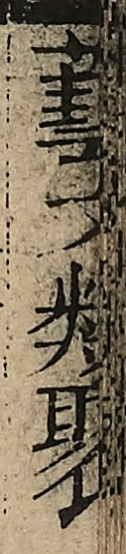藝文類聚
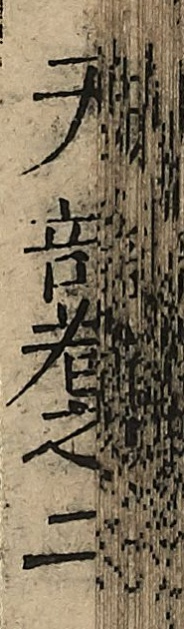天部卷之二
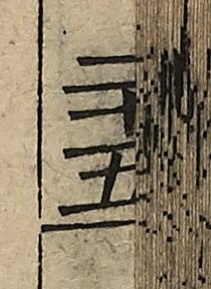三五
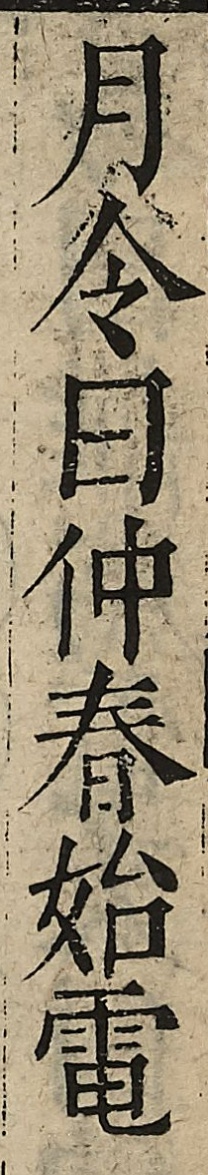月令曰仲春始電
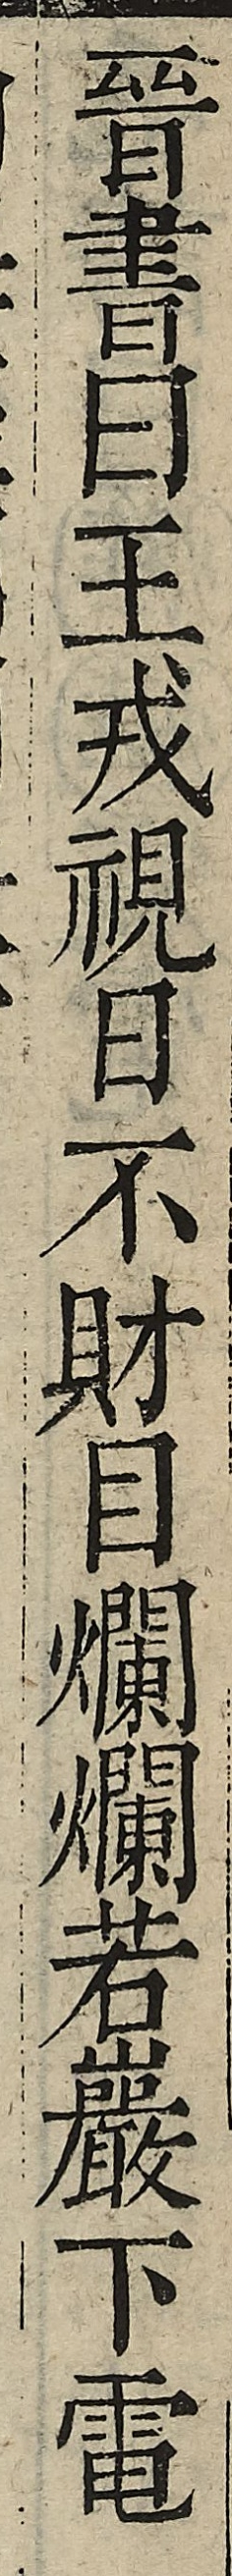晉書曰王戎視日不財目爛爛若巖下電
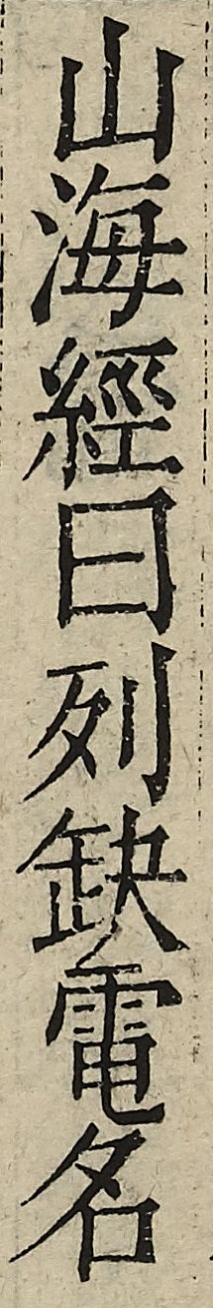山海經曰列缺電名
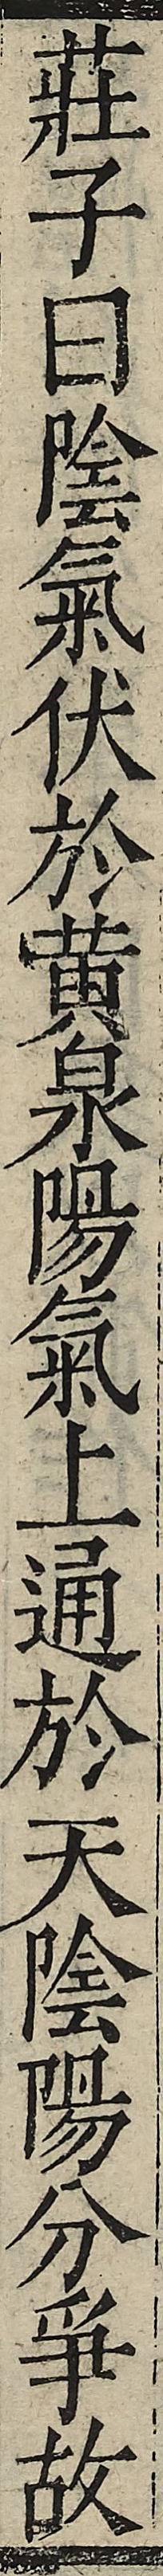莊子曰陰氣伏於黃泉陽氣上通於天陰陽分爭故
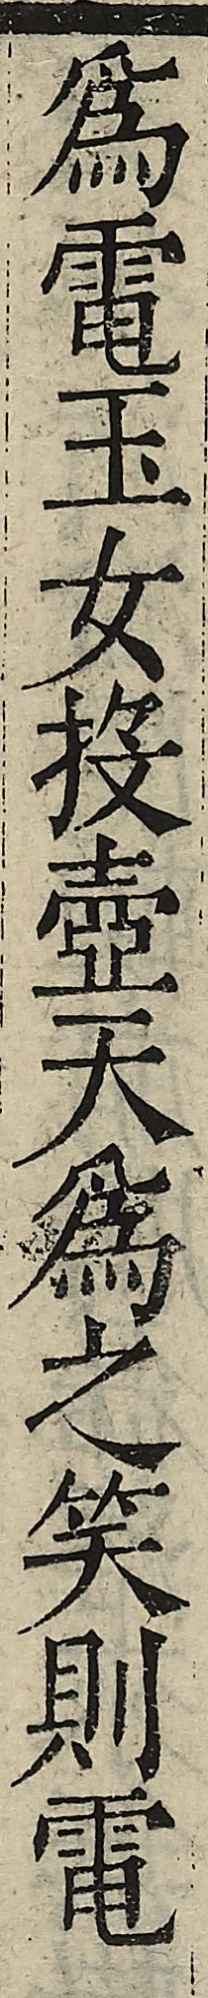為電玉女投壺天為之笑則電
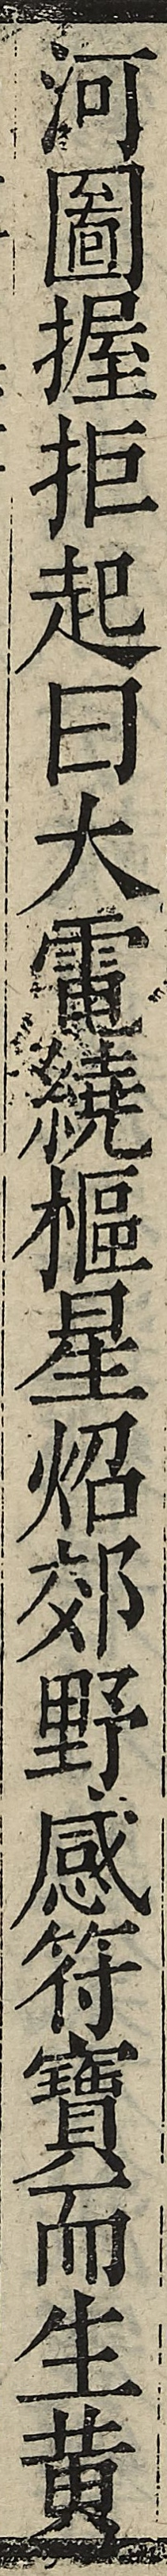河圖握拒起曰大電繞樞星炤郊野感符寶而生黃
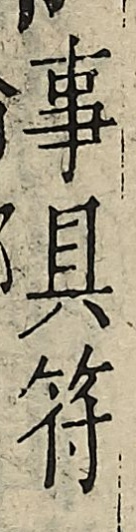事具符
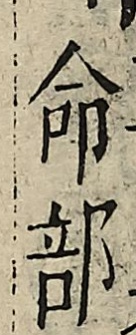命部
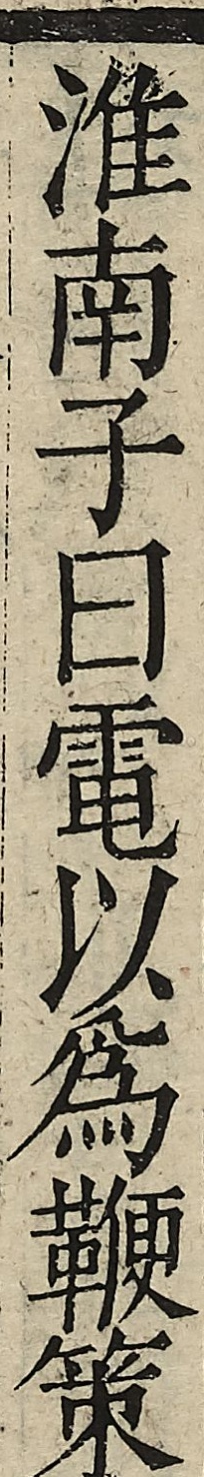淮南子曰電以為鞭策
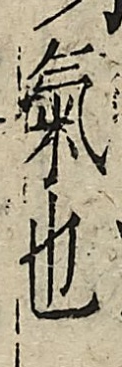氣也
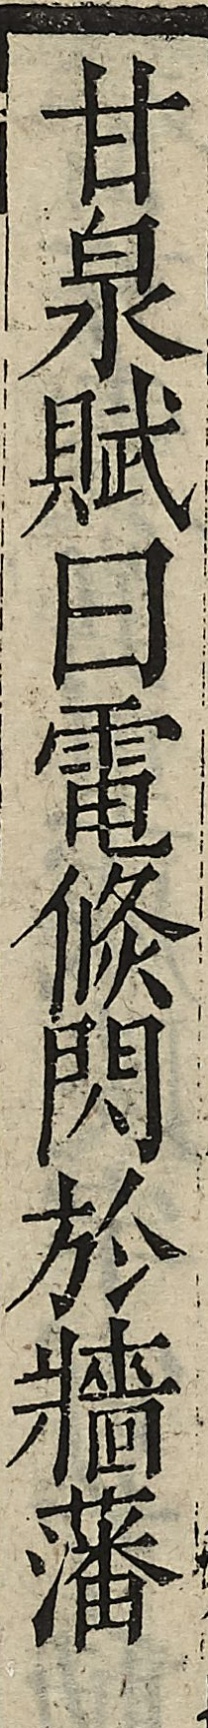甘泉賦曰電倏閃於牆藩
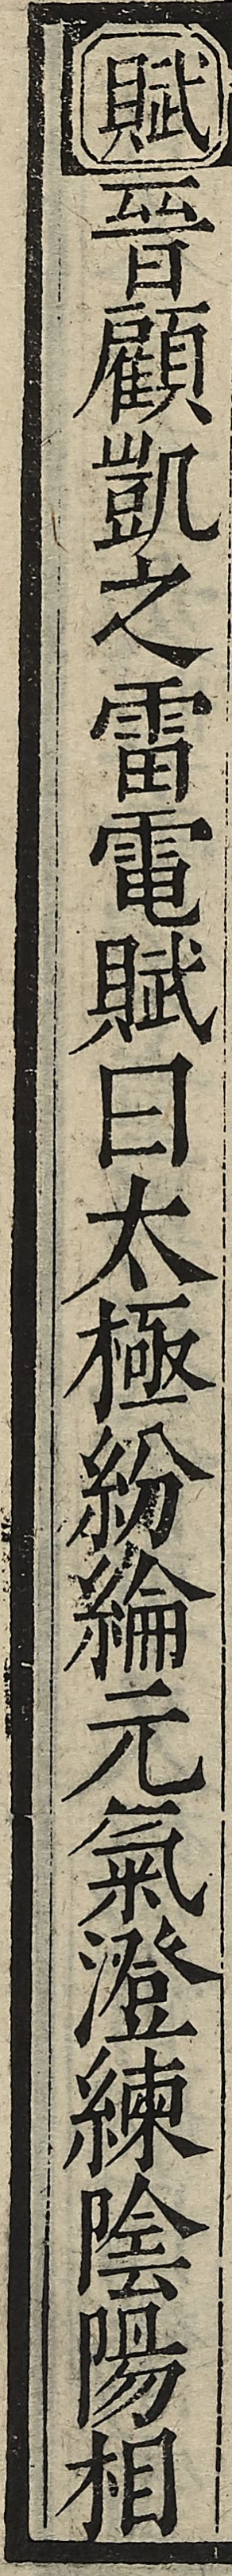賦晉顧凱之雷電賦曰太極紛綸元氣澄練陰陽相
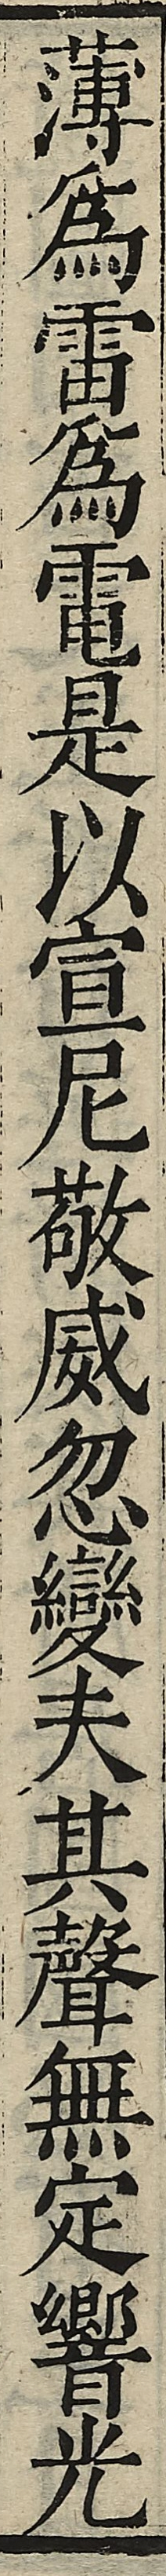薄為雷為電是以宣尼敬威忽變夫其聲無定響光
